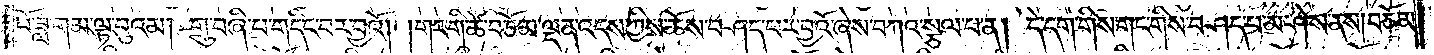པོ་ཟླ་གམ་ལྟ་བུའམ། གྲུ་བཞི་པ་གདིང་བར་བྱའོ། །གང་གི་ཚེ་བཅོམ་ལྡན་འདས་ཀྱིས་ཆོས་བཤད་པར་བྱའོ་ཞེས་བཀའ་སྩལ་པ་ན། དེ་དག་གིས་གང་གིས་བཤད་པ་མ་ཤེས་ནས། བཅོམ་
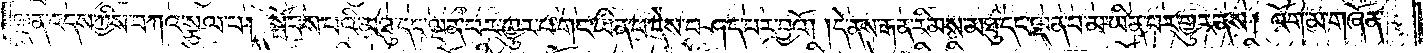ལྡན་འདས་ཀྱིས་བཀའ་སྩལ་པ། སྤོབས་པའི་མཐུ་དང་ལྡན་པར་གྱུར་པ་གང་ཡིན་པ་དེས་བཤད་པར་བྱའོ། །དེ་ནས་རྒན་རིམས་མཐུ་དང་ལྡན་པ་མ་ཡིན་པར་གྱུར་ནས། འོག་མ་གཞོན་
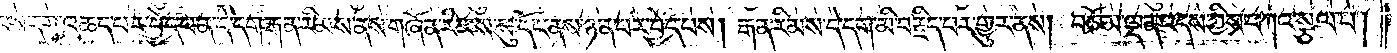རིམས་དག་འཆད་པར་བྱེད་པ་ན་དེ་དག་རྒན་རིམས་ནས་གཞོན་རིམས་སུ་དོང་ནས་ཉན་པར་བྱེད་པས། རྒན་རིམས་དེ་དག་མི་བརྗིད་པར་གྱུར་ནས། བཅོམ་ལྡན་འདས་ཀྱིས་བཀའ་སྩལ་པ།
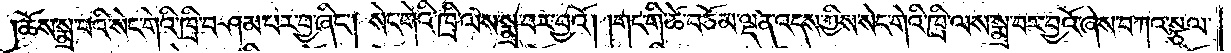ཆོས་སྨྲ་བའི་སེང་གེའི་ཁྲི་བཤམ་པར་བྱ་ཞིང༌། སེང་གེའི་ཁྲི་ལས་སྨྲ་བར་བྱའོ། །གང་གི་ཚེ་བཅོམ་ལྡན་འདས་ཀྱིས་སེང་གེའི་ཁྲི་ལས་སྨྲ་བར་བྱའོ་ཞེས་བཀའ་སྩལ་
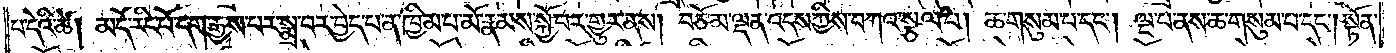པ་དེའི་ཚེ། མདོ་རིང་པོ་དག་རྒྱས་པར་སྨྲ་བར་བྱེད་པ་ན་ཁྱིམ་པ་མོ་རྣམས་སྐྱོ་བར་གྱུར་ནས། བཅོམ་ལྡན་འདས་ཀྱིས་བཀའ་སྩལ་པ། ཆ་གསུམ་པ་དང༌། ལྔ་པ་ནས་ཆ་གསུམ་པ་དང༌། སྟོན་
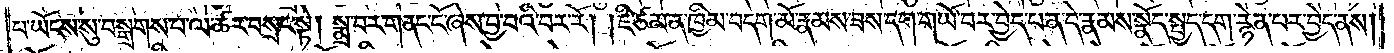པ་ཡོངས་སུ་བསྒྲགས་པ་ལ་ཚར་བསྲང་སྟེ། སྨྲ་བར་གནང་ངོ་ཞེས་བྱ་བའི་བར་རོ། །ཇི་ཙམ་ན་ཁྱིམ་བདག་མོ་རྣམས་ཟས་དག་གཡོ་བར་བྱེད་པ་ན་དེ་རྣམས་སྣོད་སྤྱད་དག་རྙེད་པར་བྱེད་ནས།
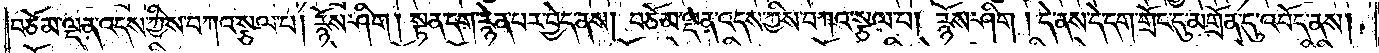བཅོམ་ལྡན་འདས་ཀྱིས་བཀའ་སྩལ་པ། རྙོས་ཤིག། སྟན་དག་རྙེན་པར་བྱེད་ནས། བཅོམ་ལྡན་འདས་ཀྱིས་བཀའ་སྩལ་པ། རྙོས་ཤིག །དེ་ནས་དེ་དག་གྲོང་དུ་མགྲོན་དུ་འབོད་ནས།
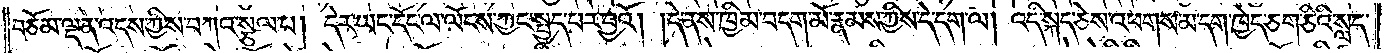བཅོམ་ལྡན་འདས་ཀྱིས་བཀའ་སྩལ་པ། དེར་ཡང་དོང་ལ་ལོངས་ཀྱང་སྤྱད་པར་བྱའོ། །དེ་ནས་ཁྱིམ་བདག་མོ་རྣམས་ཀྱིས་དེ་དག་ལ། འདི་སྐད་ཅེས་འཕགས་མ་དག་ཁྱེད་ཅག་ཅིའི་སླད་
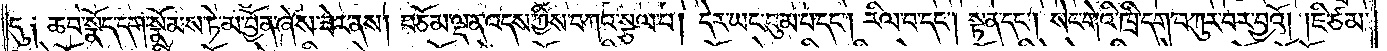དུ༑ ཆབ་སྣོད་དག་སྣོམས་ཏེ་མ་བྱོན་ཞེས་ཟེར་ནས། བཅོམ་ལྡན་འདས་ཀྱིས་བཀའ་སྩལ་པ། དེར་ཡང་བུམ་པ་དང༌། རིལ་བ་དང༌། སྟན་དང༌། སེང་གེའི་ཁྲི་དག་བཀུར་བར་བྱའོ། །ཇི་ཙམ་
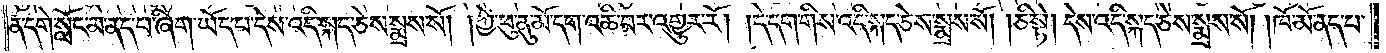ན་དགེ་སློང་མ་ནད་པ་ཞིག་ཡོད་པ་དེས་འདི་སྐད་ཅེས་སྨྲས་སོ། །ཀྱེ་ཕུ་ནུ་མོ་དག་འཆི་བར་འགྱུར་རོ། །དེ་དག་གིས་འདི་སྐད་ཅེས་སྨྲས་སོ། །ཅི་སྟེ། དེས་འདི་སྐད་ཅེས་སྨྲས་སོ། །ཁོ་མོ་ནད་པ་
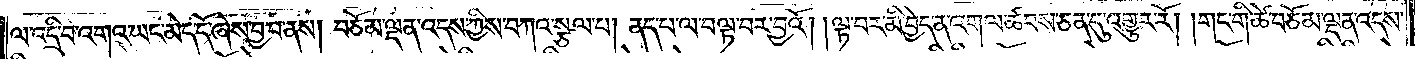ལ་འདྲི་བ་འགའ་ཡང་མེད་དོ་ཞེས་བྱ་བ་ནས། བཅོམ་ལྡན་འདས་ཀྱིས་བཀའ་སྩལ་པ། ནད་པ་ལ་བལྟ་བར་བྱའོ། །ལྟ་བར་མི་བྱེད་ན་འགལ་ཚབས་ཅན་དུ་འགྱུར་རོ། །གང་གི་ཚེ་བཅོམ་ལྡན་འདས་
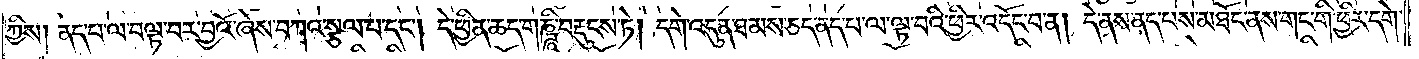ཀྱིས། ནད་པ་ལ་བལྟ་བར་བྱའོ་ཞེས་བཀའ་སྩལ་པ་དང༌། དེ་ཕྱིན་ཆད་གཎྜཱི་བརྡུངས་ཏེ། དགེ་འདུན་ཐམས་ཅད་ནད་པ་ལ་ལྟ་བའི་ཕྱིར་འདོང་བ་ན། དེ་ནས་ནད་པས་མཐོང་ནས་གང་གི་ཕྱིར་དགེ་
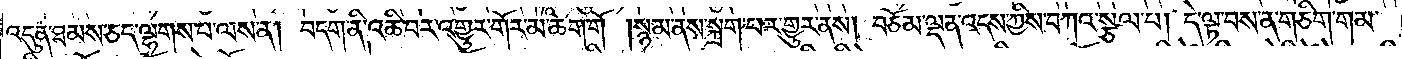འདུན་ཐམས་ཅད་ལྷགས་པ་ལས་ན། བདག་ནི་འཆི་བར་འགྱུར་གོར་མ་ཆག་གོ །སྙམ་ནས་སྐྲག་པར་གྱུར་ནས། བཅོམ་ལྡན་འདས་ཀྱིས་བཀའ་སྩལ་པ། དེ་ལྟ་བས་ན་གཅིག་གམ་
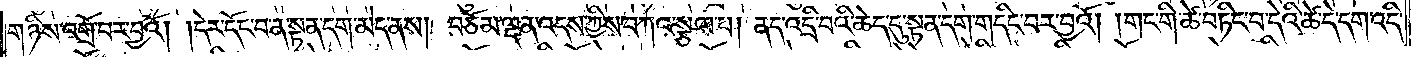གཉིས་འགྲོ་བར་བྱའོ། །དེར་དོང་བ་ན་སྟན་དག་མེད་ནས། བཅོམ་ལྡན་འདས་ཀྱིས་བཀའ་སྩལ་པ། ནད་འདྲི་བའི་ཆེད་དུ་སྟན་དག་གདིང་བར་བྱའོ། །གང་གི་ཚེ་བཏིང་བ་དེའི་ཚེ་དེ་དག་འདི་
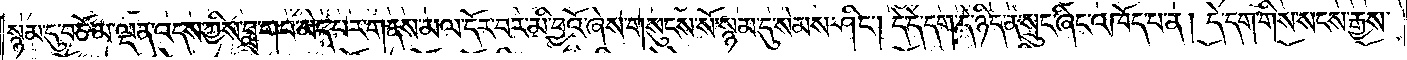སྙམ་དུ་བཅོམ་ལྡན་འདས་ཀྱིས་བླ་གབ་མེད་པར་གནས་མལ་དོར་བར་མི་བྱའོ་ཞེས་གསུངས་སོ་སྙམ་དུ་སེམས་ཤིང༌། དེ་དེ་དག་དེ་ཉིད་ན་སྲུང་ཞིང་འཁོད་པ་ན། དེ་དག་གིས་སངས་རྒྱས་
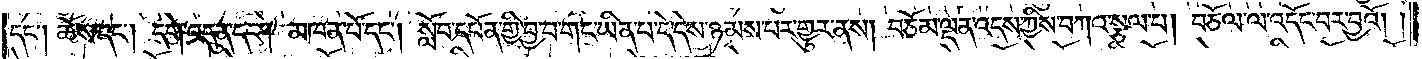དང༌། ཆོས་དང༌། དགེ་འདུན་དང༌། མཁན་པོ་དང༌། སློབ་དཔོན་གྱི་བྱ་བ་གང་ཡིན་པ་དེ་དེས་ཉམས་པར་གྱུར་ནས། བཅོམ་ལྡན་འདས་ཀྱིས་བཀའ་སྩལ་པ། བཅོལ་ལ་འདོང་བར་བྱའོ། །
